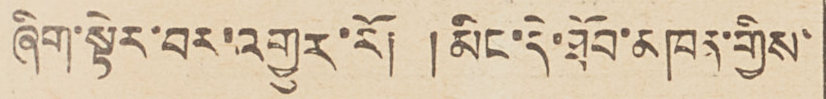ཞིག་སྟེར་བར་འགྱུར་རོ།  །མིང་དེ་ཐོབ་མཁན་གྱིས་
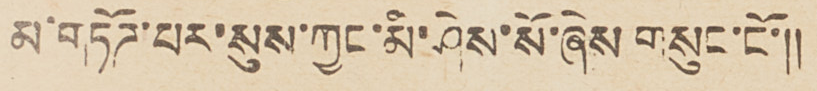མ་གཏོཌ་པར་སུས་ཀྱང་མི་ཤེས་སོ་ཞེས གསུང་ངོ་༎
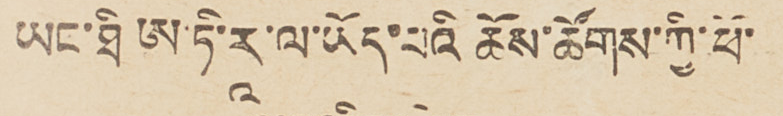ཡང་ཐི ཨ་ཏི་རཱ་ལ་ཡོད་པའི ཆོས་ཚོགས་ཀྱི་ཕོ་
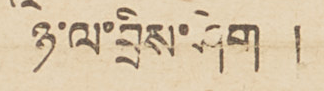ཉ་ལ་བྲིས་ཤིག །
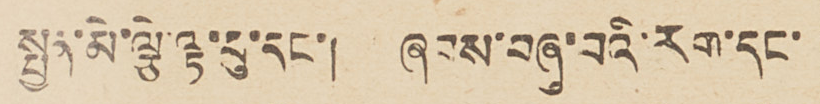སྤྱན་མེ་ལྕེ་ལྟ་བུ་དང་། ཞབས་བཞུ་བའི་རག་དང་
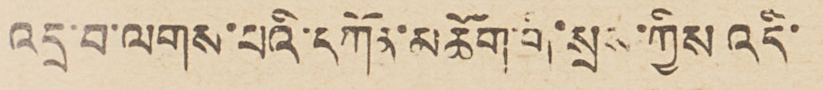འདྲ་བ་ལགས་པའི་དཀོན་མཆོག་གི་སྲས་ཀྱིས འདི་
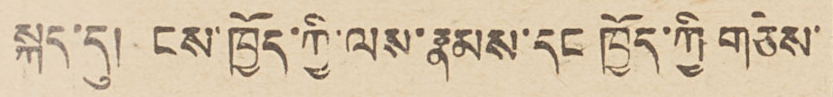སྐད་དུ། ངས་ཁྱོད་ཀྱི་ལས་རྣམས་དང ཁྱོད་ཀྱི གཅེས་
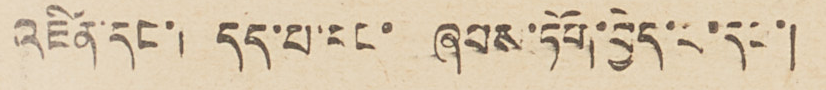འཛིན་དང་། དད་པ་དང་ ཞབས་ཏོག་བྱེད་པ་དང་།
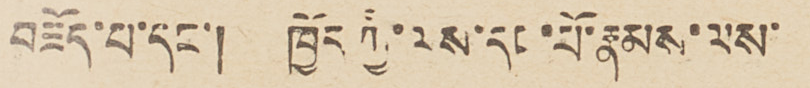བཟོད་པ་དང་། ཁྱོད ཀྱི་ལས་དང་པོ་རྣམས་ལས་
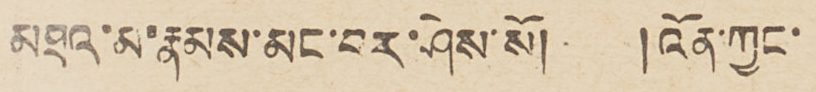མཐའ་མ་རྣམས་མང་བར་ཤེས་སོ། །འོན་ཀྱང་
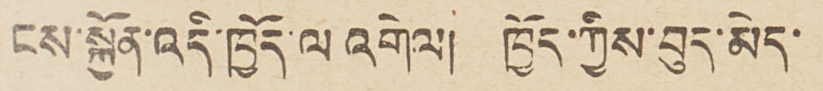ངས་སྐྱོན་འདི་ཁྱོད་ལ འགེལ། ཁྱོད་ཀྱིས་བུད་མེད་
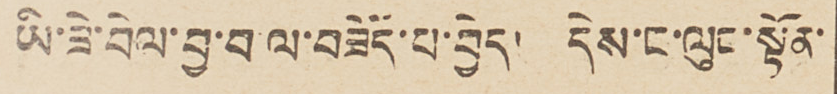ཡི་ཟེ་བེལ་བྱ་བ་ལ་བཟོད་པ་བྱེད། དེས་ང་ལུང་སྟོན་
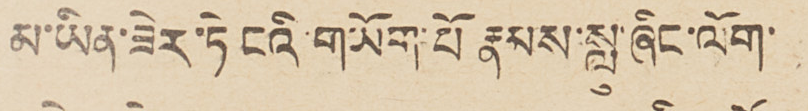མ་ཡིན་ཟེར་ཏེ ངའི་གཡོག་པོ རྣམས་སླུ་ཞིང་ལོག་
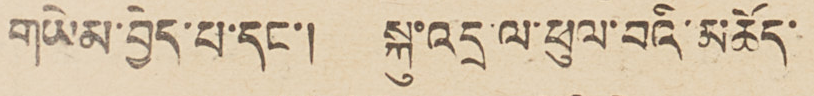གཡེམ་བྱེད་པ་དང་།    སྐུ་འདྲ་ལ་ཕུལ་བའི་མཆོད་
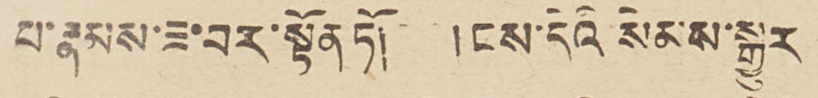པ་རྣམས་ཟ་བར་སྟོན ཏོ།    །ངས་དེའི སེམས་སྒྱུར
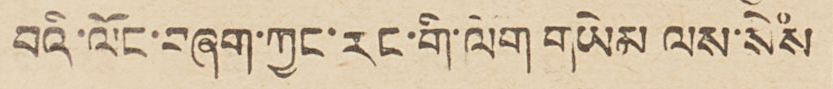བའི་ལོང་བཞག་ཀྱང་རང་གི་ལོག གཡེམ ལས་སེཾས
